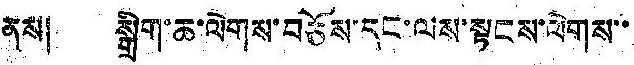ནས། སྒྲིག་ཆ་ལེགས་བཅོས་དང་ལས་སྟངས་ལེགས་་
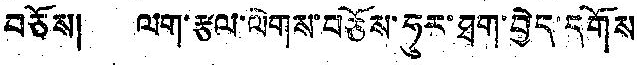བཅོས། ལག་རྩལ་ལེགས་བཅོས་ཧུར་ཐག་བྱེད་དགོས
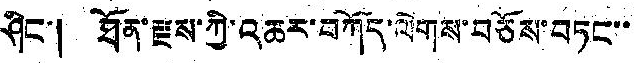ཤིང་། ཐོན་རྫས་ཀྱི་འཆར་བཀོད་ལེགས་བཅོས་བཏང་་
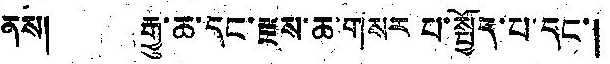ནས། རྒྱུ་ཆ་དང་རྫས་ཆ་གསར པ་སྤྱོད་པ་དང་།
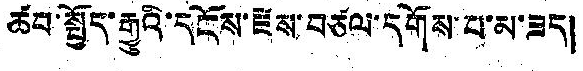ཚབ་སྤྱོད་རྒྱུའི་དངོས་རྫས་བཙལ་དགོས་པ་མ་ཟད།
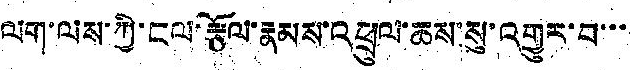ལག་ལས་ཀྱི་ངལ་རྩོལ་རྣམས་འཕྲུལ་ཆས་སུ་འགྱུར་བ་་་
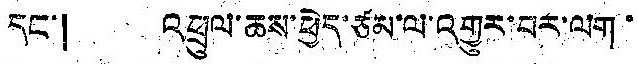དང་། འཕྲུལ་ཆས་ཕྱེད་ཙམ་ལ་འགྱུར་བར་ལག་
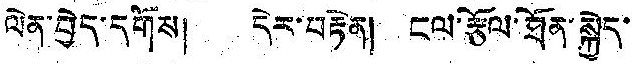ལེན་བྱེད་དགོས། དེར་བརྟེན། ངལ་རྩོལ་ཐོན་སྐྱེད་
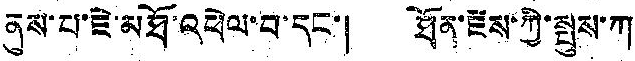ནུས་པ་ཇེ་མཐོ་འཕེལ་བ་དང་། ཐོན་རྫས་ཀྱི་སྤུས་ཀ
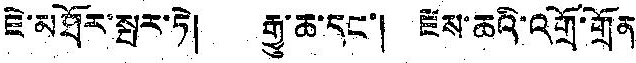ཇེ་མཐོར་སྦར་ཏེ། རྒྱུ་ཆ་དང་། རྫས་ཆའི་འགྲོ་གྲོན
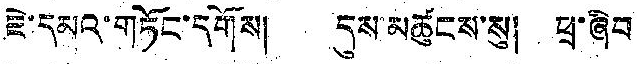ཇེ་དམའ་གཏོང་དགོས། དུས་མཚུངས་སུ། ཕྲ་ཞིབ
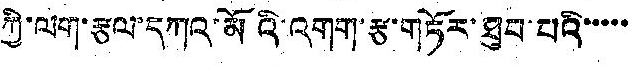ཀྱི་ལག་རྩལ་དཀའ་མོའི་འགག་རྩ་གཏོར་ཐུབ་པའི་་་་་
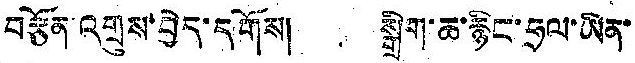བརྩོན་འགྲུས་བྱེད་དགོས། སྒྲིག་ཆ་རྙིང་ཧྲལ་ཡིན་
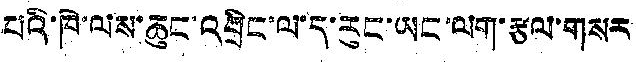པའི་ཁེ་ལས་ཆུང་འབྲིང་ལ་ད་རུང་ཡང་ལག་རྩལ་གསར
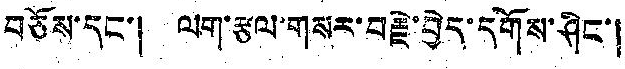བཅོས་དང་། ལག་རྩལ་གསར་བརྗེ་བྱེད་དགོས་ཤིང་།
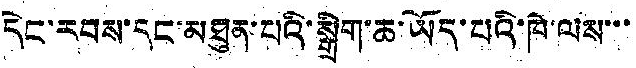དེང་རབས་དང་མཐུན་པའི་སྒྲིག་ཆ་ཡོད་པའི་ཁེ་ལས་་་
